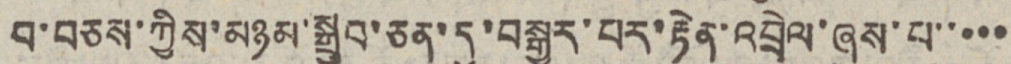བ་བཅས་ཀྱིས་མཉམ་སྒྲུབ་ཅན་དུ་བསྒྱུར་པར་རྟེན་འབྲེལ་ཞུས་པ་་་་་
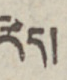རེད།
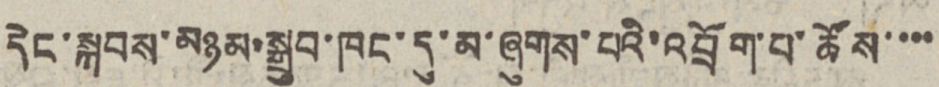དེང་སྐབས་མཉམ་སྒྲུབ་ཁང་དུ་མ་ཞུགས་པའི་འབྲོག་པ་ཚོས་་་་
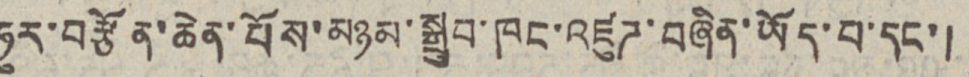ཧུར་བརྩོན་ཆེན་པོས་མཉམ་སྒྲུབ་ཁང་འཛུཊ་བཞིན་ཡོད་པ་དང་།
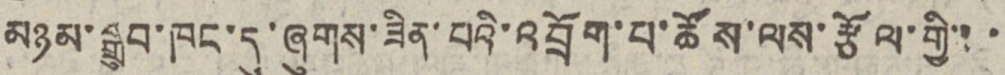མཉམ་སྒྲུབ་ཁང་དུ་ཞུགས་ཟིན་པའི་འབྲོག་པ་ཚོས་ལས་རྩོལ་གྱི་་་
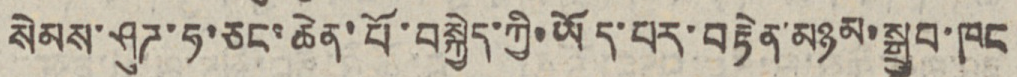སེམས་ཤུཊ་ཧ་ཅང་ཆེན་པོ་བསྐྱེད་ཀྱི་ཡོད་པར་བརྟེན་མཉམ་སྒྲུབ་ཁང
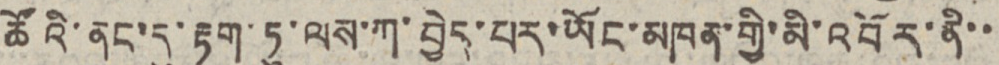ཚོའི་ནང་དུ་རྟག་ཏུ་ལས་ཀ་བྱེད་པར་ཡོང་མཁན་གྱི་མི་འབོར་ནི་་
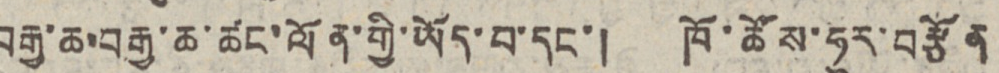བརྒྱ་ཆ་བརྒྱ་ཆ་ཚང་ལོན་གྱི་ཡོད་པ་དང་། ཁོ་ཚོས་ཧུར་བརྩོན
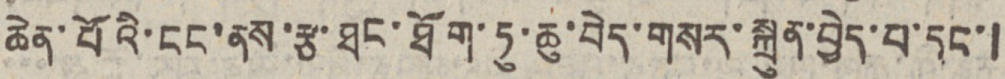ཆེན་པོའི་ངང་ནས་རྩ་ཐང་ཐོག་ཏུ་ཆུ་བེད་གསར་སྐྲུན་བྱེད་པ་དང་།
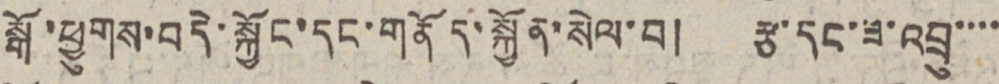སྒོ་ཕྱུགས་བདེ་སྐྱོང་དང་གནོད་སྐྱོན་སེལ་བ། རྩ་དང་ཟ་འབྲུ་་་་
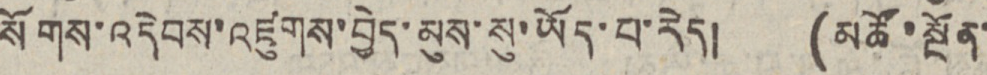སོགས་འདེབས་འཛུགས་བྱེད་མུས་སུ་ཡོད་པ་རེད། (མཚོ་སྔོན་
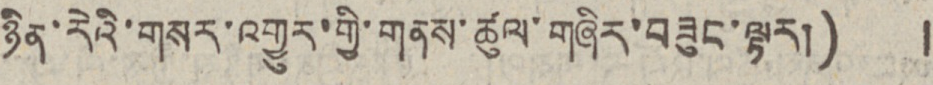ཉིན་རེའི་གསར་འགྱུར་གྱི་གནས་ཚུལ་གཞིར་བཟུང་ལྟར།) །
